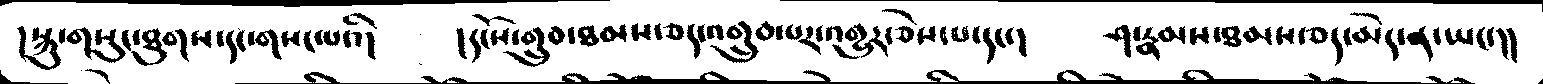།སྐུ་གསུང་ཐུགས་དང་གསང་པའི།   །དངོས་གྲུབ་ཐམས་ཅད་འགྲུབ་པར་འགྱུར་ཅེས་པ་དང་།   ཤ་རྣམས་ཐམས་ཅད་མེད་ན་ཡང་།།
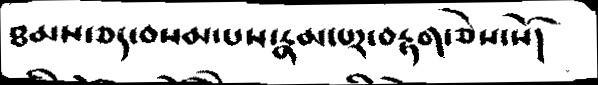ཐམས་ཅད་བསམ་པས་རྣམ་པར་བརྟག་ཅེས་སོ།
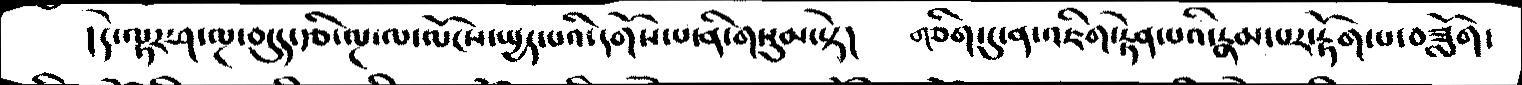།དེ་ལྟར་ཤ་ལྔ་བདུད་རྩི་ལྔ་ལ་ལོངས་སྤྱོད་པའི་དགོས་པ་ནི་གསུམ་སྟེ།   གཅིག་དུ་ན་འཇིག་རྟེན་པའི་རྣམ་པར་རྟོག་པ་བཟློག་
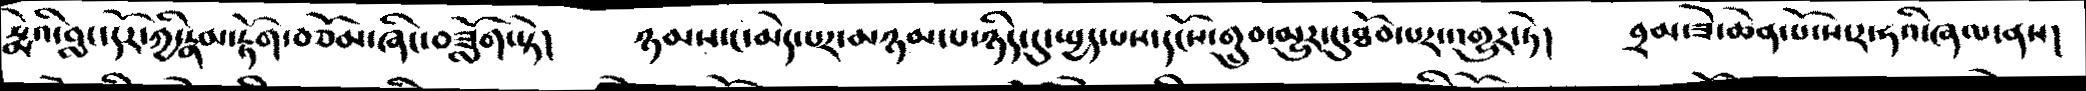སྨེའི་བླང་དོར་ཀྱི་རྣམ་རྟོག་བཅོམ་ཞིང་བཟློག་སྟེ།   ཉམས་ང་མེད་པར་མཉམ་པ་ཉིད་དུ་སྤྱད་པས་དངོས་གྲུབ་མྱུར་དུ་ཐོབ་པར་འགྱུར་ཏེ།   བྲམ་ཟེ་ཆེན་པོ་ས་ར་ཧའི་ཞལ་ནས།
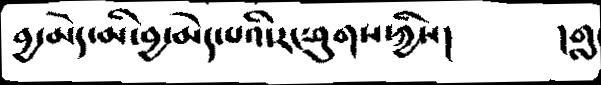བྱ་མེད་མི་བྱ་མེད་པའི་རང་ཤུགས་ཀྱིས།   །གླ
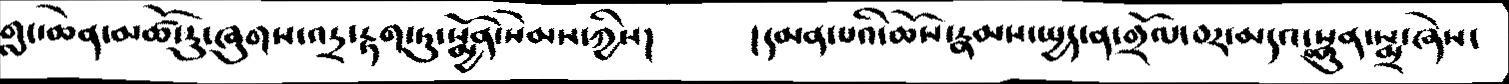གླང་ཆེན་མཚོ་རུ་ཞུགས་འདྲ་རྟག་ཏུ་སྨྱོན་སེམས་ཀྱིས།   །དམན་པའི་ཆོས་རྣམས་སྤྱད་ན་གྲོལ་བར་མདའ་སྣུན་སྨྲ་ཞེས་
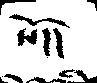སོ།།
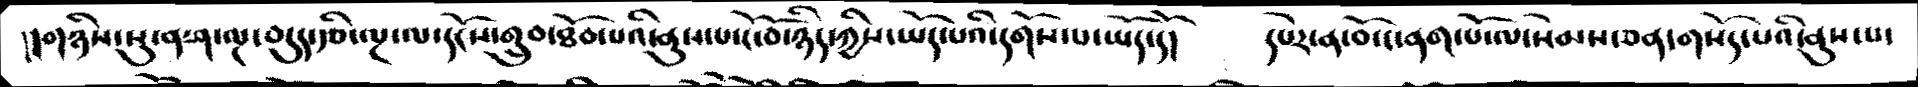།གཉིས་སུ་ན་ཤ་ལྔ་བདུད་རྩི་ལྔ་ལ་དངོས་གྲུབ་ཐོབ་པའི་ནུས་པ་ངོ་བོ་ཉིད་ཀྱིས་ཡོད་པའི་དགོས་པ་ཡོད་དོ།    དཔེར་ན་བོ་ང་ནག་པོ་ལ་སེམས་ཅན་གསོད་པའི་ནུས་པ་
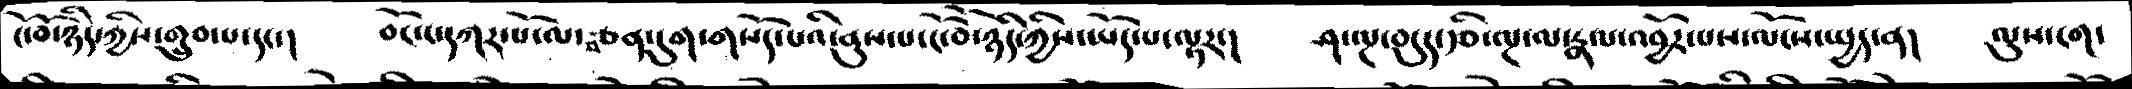ངོ་བོ་ཉིད་ཀྱིས་གྲུབ་པ་དང་།   བོང་ང་དཀར་པོ་ལ་བཙན་དུག་གསོད་པའི་ནུས་པ་ངོ་བོ་ཉིད་ཀྱིས་ཡོད་པ་ལྟར་།   ཤ་ལྔ་བདུད་རྩི་ལྔ་ལ་རྣལ་འབྱོར་པས་ལོངས་སྤྱད་ན།  ལུས་ངག་
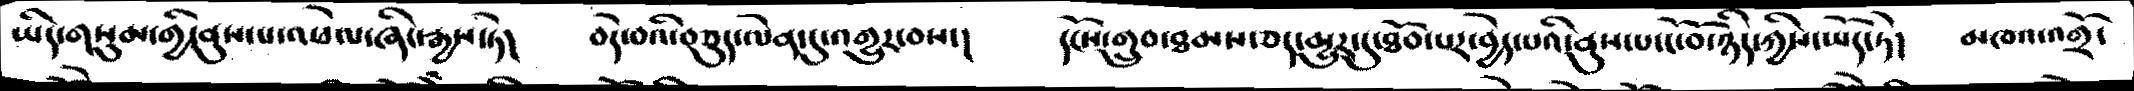ཡིད་གསུམ་གྱི་ནུས་པ་འཕེལ་ཞིང་རྒྱས་ཏེ།   བདེ་བའི་བཅུད་ལེན་དུ་འགྱུར་བས་།   དངོས་གྲུབ་ཐམས་ཅད་མྱུར་དུ་ཐོབ་པར་བྱེད་པའི་ནུས་པ་ངོ་བོ་ཉིད་ཀྱིས་ཡོད་ཏེ།   མཁའ་འགྲོ་
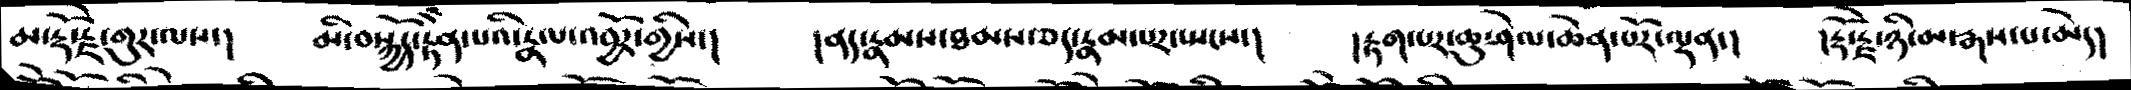མ་རྡོ་རྗེ་གུར་ལས་།   མི་བསྐྱོད་རྟེན་པའི་རྣལ་འབྱོར་གྱིས་།   །ནད་རྣམས་ཐམས་ཅད་རྣམ་པར་སྤངས་།   །རྟག་པར་ཆུ་ཤེལ་ཆེན་པོར་ལྡན་།   །རྡོ་རྗེ་ཉི་མ་རྒས་པ་མེད།
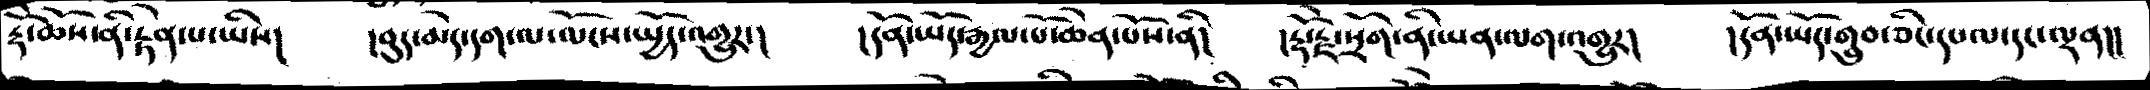རྡོེ་ཆོས་ནི་རྟེན་པ་ཡིས།   །བུད་མེད་དག་ལ་ལོངས་སྤྱོད་འགྱུར་།   །དོན་ཡོད་རྒྱལ་པོ་ཆེན་པོས་ནི།   །རྡོ་རྗེ་སྲོག་ནི་ཡན་ལག་འགྱུར།  །དོན་ཡོད་གྲུབ་ཅིང་དཔལ་དང་ལྡན།།
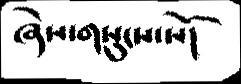ཞེས་གསུངས་སོ།
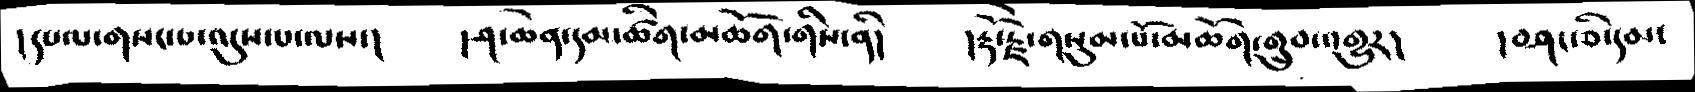།དཔལ་གསང་བ་འདུས་པ་ལས་།   །ཤ་ཆེན་དམ་ཚིག་མཆོག་གིས་ནི།  །རྡོ་རྗེ་གསུམ་པོ་མཆོག་གྲུབ་འགྱུར།   །བཤང་ཅི་དམ་
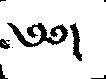༄༅།
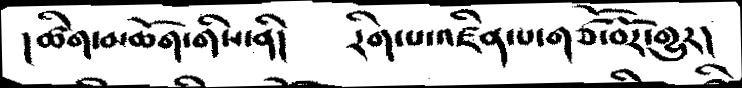། ཚིག་མཆོག་གིས་ནི།   རིག་པ་འཛིན་པ་གཙོ་བོར་གྱུར།
